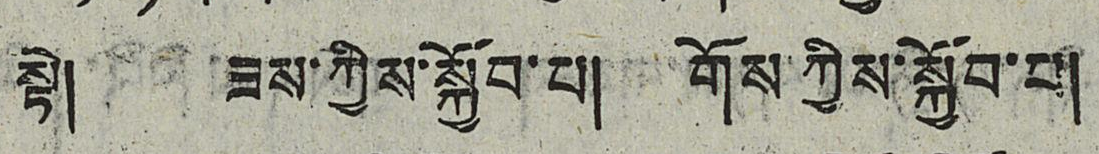སྟེ། ཟས་ཀྱིས་སྐྱོབ་པ། གོས་ཀྱིས་སྐྱོབ་པ།
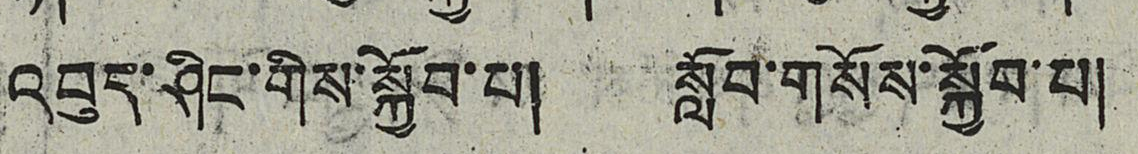འབུད་ཤིང་གིས་སྐྱོབ་པ། སློབ་གསོས་སྐྱོབ་པ།
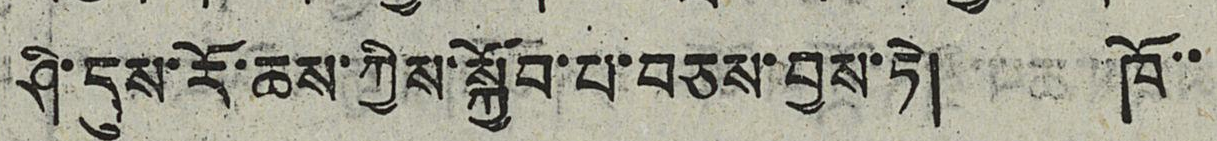ཤི་དུས་རོ་ཆས་ཀྱིས་སྐྱོབ་པ་བཅས་བྱས་ཏེ། ཁོ་་
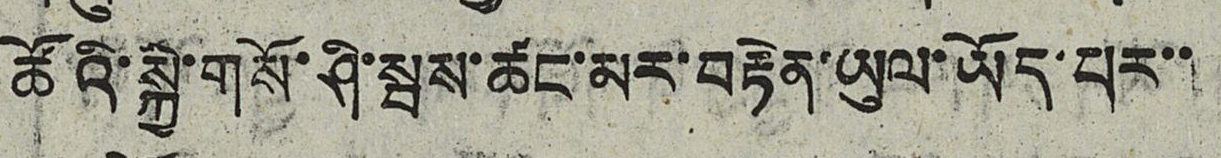ཚོའི་སྐྱེ་གསོ་ཤི་སྦས་ཚང་མར་བརྟེན་ཡུལ་ཡོད་པར་་
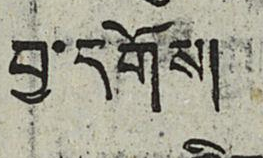བྱ་དགོས།
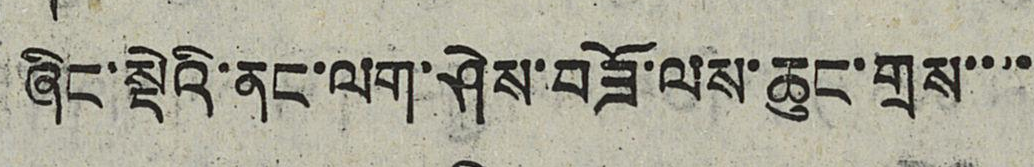ཞིང་སྡེའི་ནང་ལག་ཤེས་བཟོ་ལས་ཆུང་གྲས་་་་
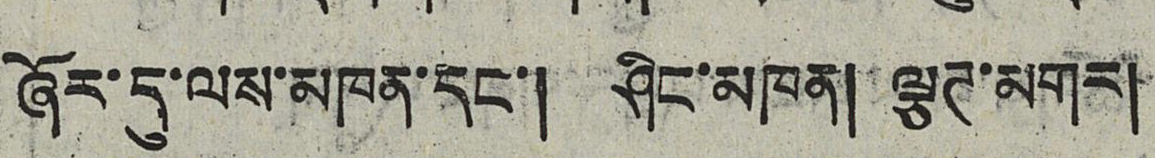ཞོར་དུ་ལས་མཁན་དང་། ཤིང་མཁན། ལྕཊ་མགར།
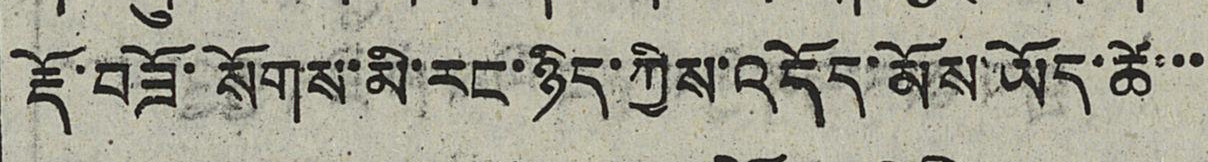རྡོ་བཟོ་སོགས་མི་རང་ཉིད་ཀྱིས་འདོད་མོས་ཡོད་ཚེ་་
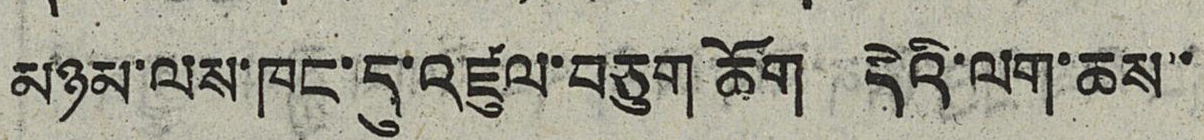མཉམ་ལས་ཁང་དུ་འཛུལ་བཅུག ཆོག དེའི་ལག་ཆས་་
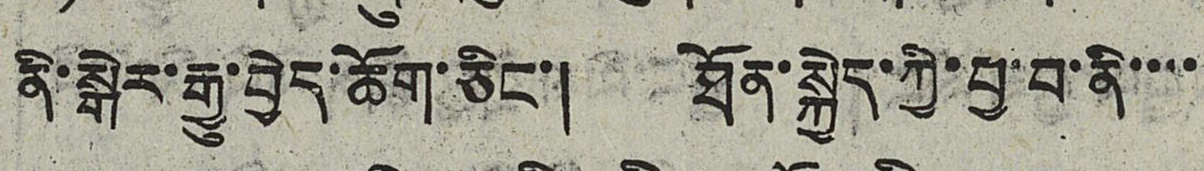ནི་སྒེར་རྒྱུ་བྱེད་ཆོག་ཅིང་། ཐོན་སྐྱེད་ཀྱི་བྱ་བ་ནི་་་་
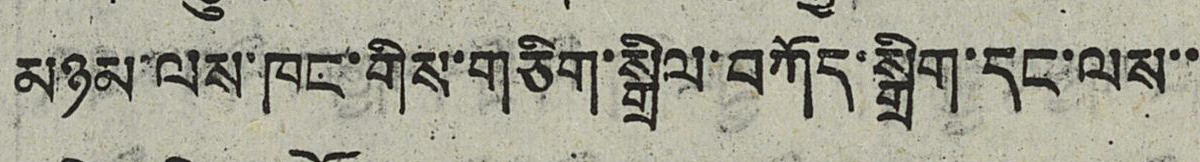མཉམ་ལས་ཁང་གིས་གཅིག་སྒྲིལ་བཀོད་སྒྲིག་དང་ལས་
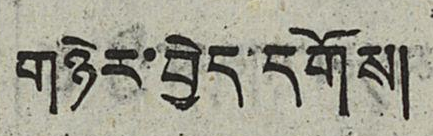གཉེར་བྱེད་དགོས།
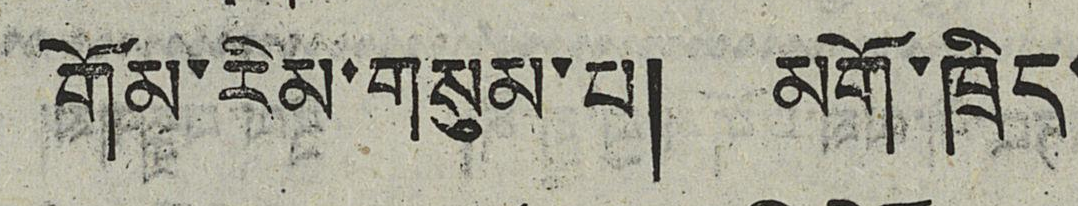གོམ་རིམ་གསུམ་པ། མགོ་ཁྲིད་
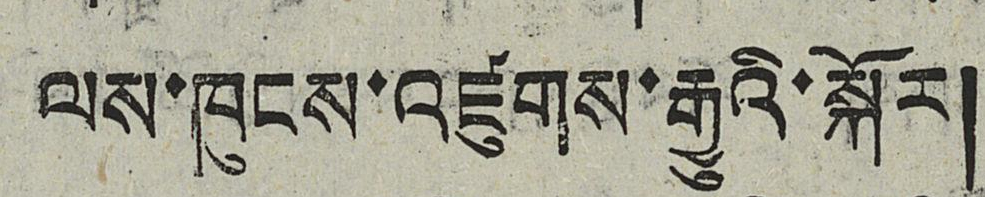ལས་ཁུངས་འཛུགས་རྒྱུའི་སྐོར།
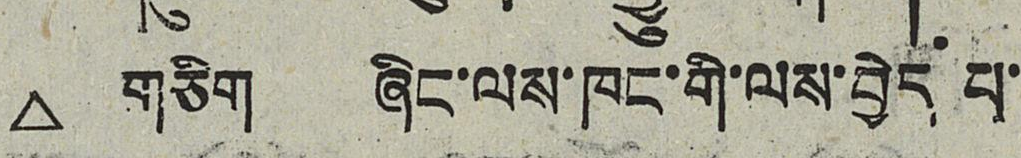△ གཅིག ཞིང་ལས་ཁང་གི་ལས་བྱེད པ་
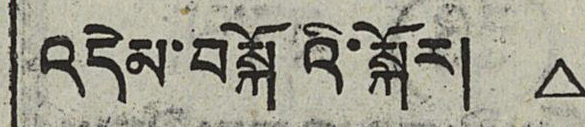འདེམ་བསྐོའི་སྐོར། △
